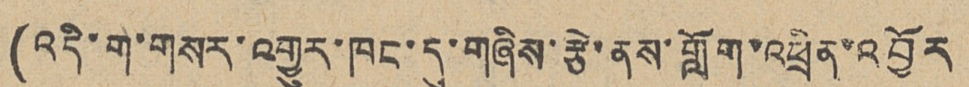(འདི་ག་གསར་འགྱུར་ཁང་དུ་གཞིས་རྩེ་ནས་གློག་འཕྲིན་འབྱོར
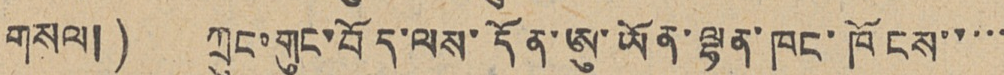གསལ།) ཀྲུང་གུང་བོད་ལས་དོན་ཨུ་ཡོན་ལྷན་ཁང་ཁོངས་་་་་
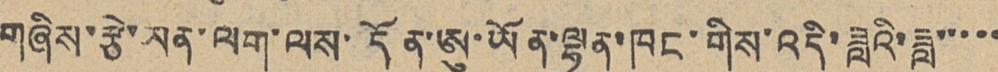གཞིས་རྩེ་ཡན་ལག་ལས་དོན་ཨུ་ཡོན་ལྷན་ཁང་གིས་འདི་ཟླའི་ཟླ་་་་་
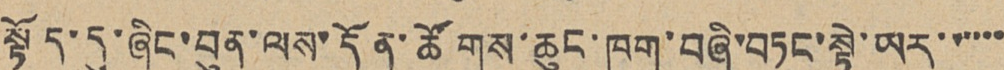སྟོད་དུ་ཞིང་བུན་ལས་དོན་ཚོགས་ཆུང་ཁག་བཞི་བཏང་སྟེ་ཡར་་་་་་
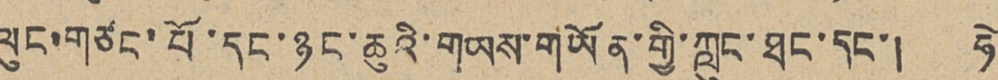ལུང་གཙང་པོ་དང་ཉང་ཆུའི་གཡས་གཡོན་གྱི་ཀླུང་ཐང་དང་། ཧེ
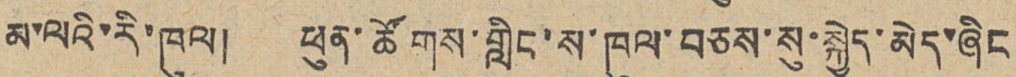མ་ལའི་རི་ཁུལ། ཕུན་ཚོགས་གླིང་ས་ཁུལ་བཅས་སུ་སྐྱེད་མེད་ཞིང
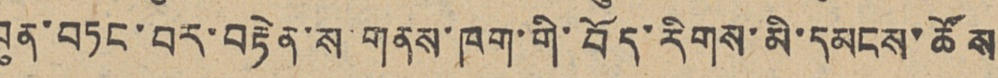བུན་བཏང་བར་བརྟེན་ས་གནས་ཁག་གི་བོད་རིགས་མི་དམངས་ཚོས
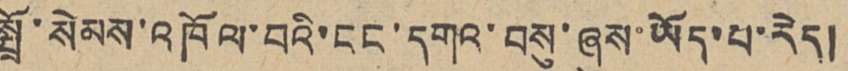སྤྲོ་སེམས་འཁོལ་བའི་ངང་དགའ་བསུ་ཞུས་ཡོད་པ་རེད།
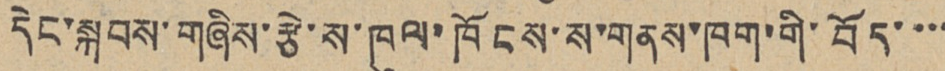དེང་སྐབས་གཞིས་རྩེ་ས་ཁུལ་ཁོངས་ས་གནས་ཁག་གི་བོད་་་་
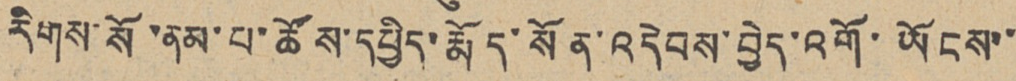རིགས་སོ་ནམ་པ་ཚོས་དཔྱིད་རྨོད་སོན་འདེབས་བྱེད་འགོ་ཡོངས་་
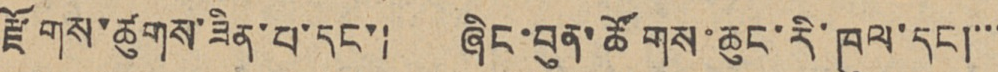རྫོགས་ཚུགས་ཟིན་པ་དང་། ཞིང་བུན་ཚོགས་ཆུང་རི་ཁུལ་དང།་་་
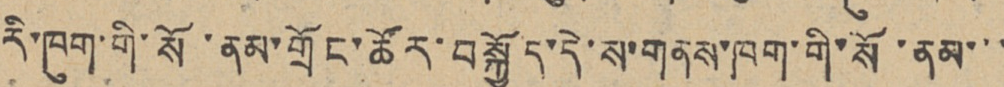རི་ཁུག་གི་སོ་ནམ་གྲོང་ཚོར་བསྐྱོད་དེ་ས་གནས་ཁག་གི་སོ་ནམ་་་
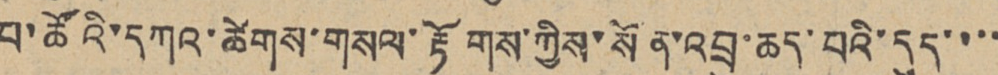པ་ཚོའི་དཀའ་ཚེགས་གསལ་རྟོགས་ཀྱིས་སོན་འབྲུ་ཆད་པའི་དུད་་་་
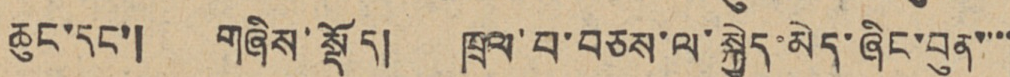ཆུང་དང་། གཞིས་སྡོད། ཁྲལ་བ་བཅས་ལ་སྐྱེད་མེད་ཞིང་བུན་་་་
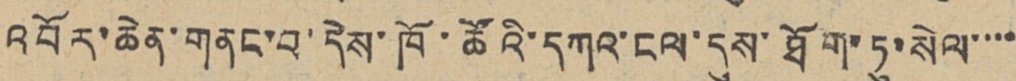འབོར་ཆེན་གནང་བ་དེས་ཁོ་ཚོའི་དཀའ་ངལ་དུས་ཐོག་ཏུ་སེལ་་་་
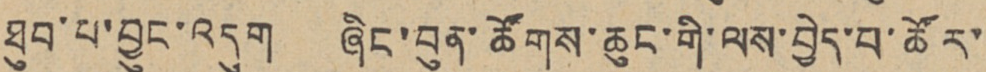ཐུབ་པ་བྱུང་འདུག ཞིང་བུན་ཚོགས་ཆུང་གི་ལས་བྱེད་པ་ཚོར་
